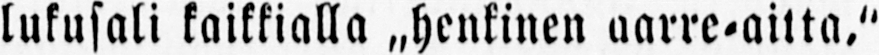lukusali kaikkialla ˶henkinen aarre-aitta."
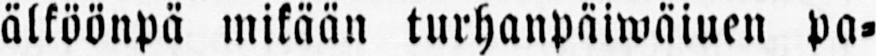älköönpä mikään turhanpäiwäiuen pa-
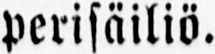perisäiliö.
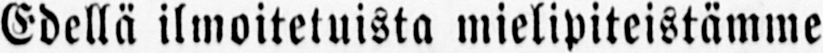Edellä ilmoitetuista mielipiteistämme
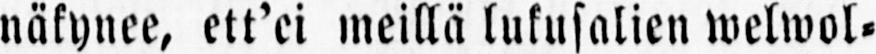näkynee, ett'ei meillä lukusalien welwol-
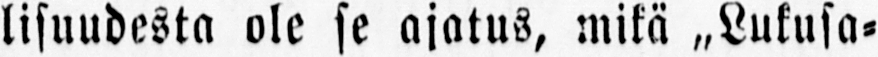lisuudesta ole se ajatus, mikä ˶Lukusa-
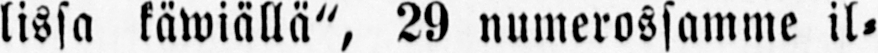lissa käwiällä", 29 numerossamme il-
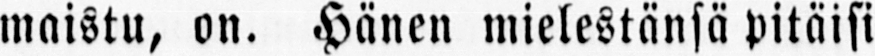maistu, on. Hänen mielestänsä pitäisi
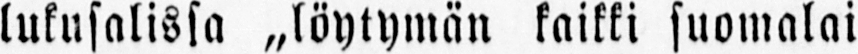lukusalissa ˶löytymän kaikki suomalai
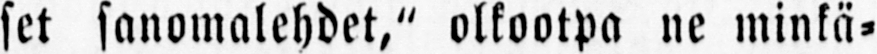set sanomalehdet," olkootpa ne minkä-
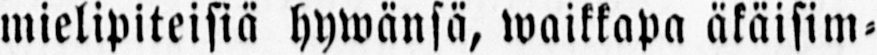mielipiteisiä hywänsä, waikkapa äkäisim-
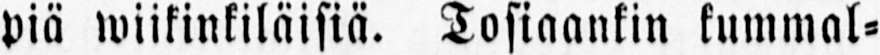piä wiikinkiläisiä. Tosiaankin kummal-
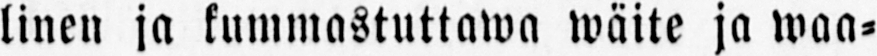linen ja kummastuttawa wäite ja waa-
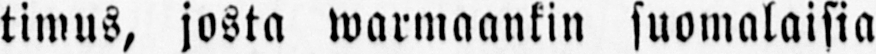timus, josta warmaankin suomalaisia
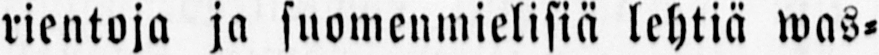rientoja ja suomenmielisiä lehtiä was-
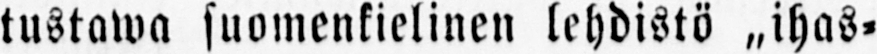tustawa suomenkielinen lehdistö ˶ihas-
